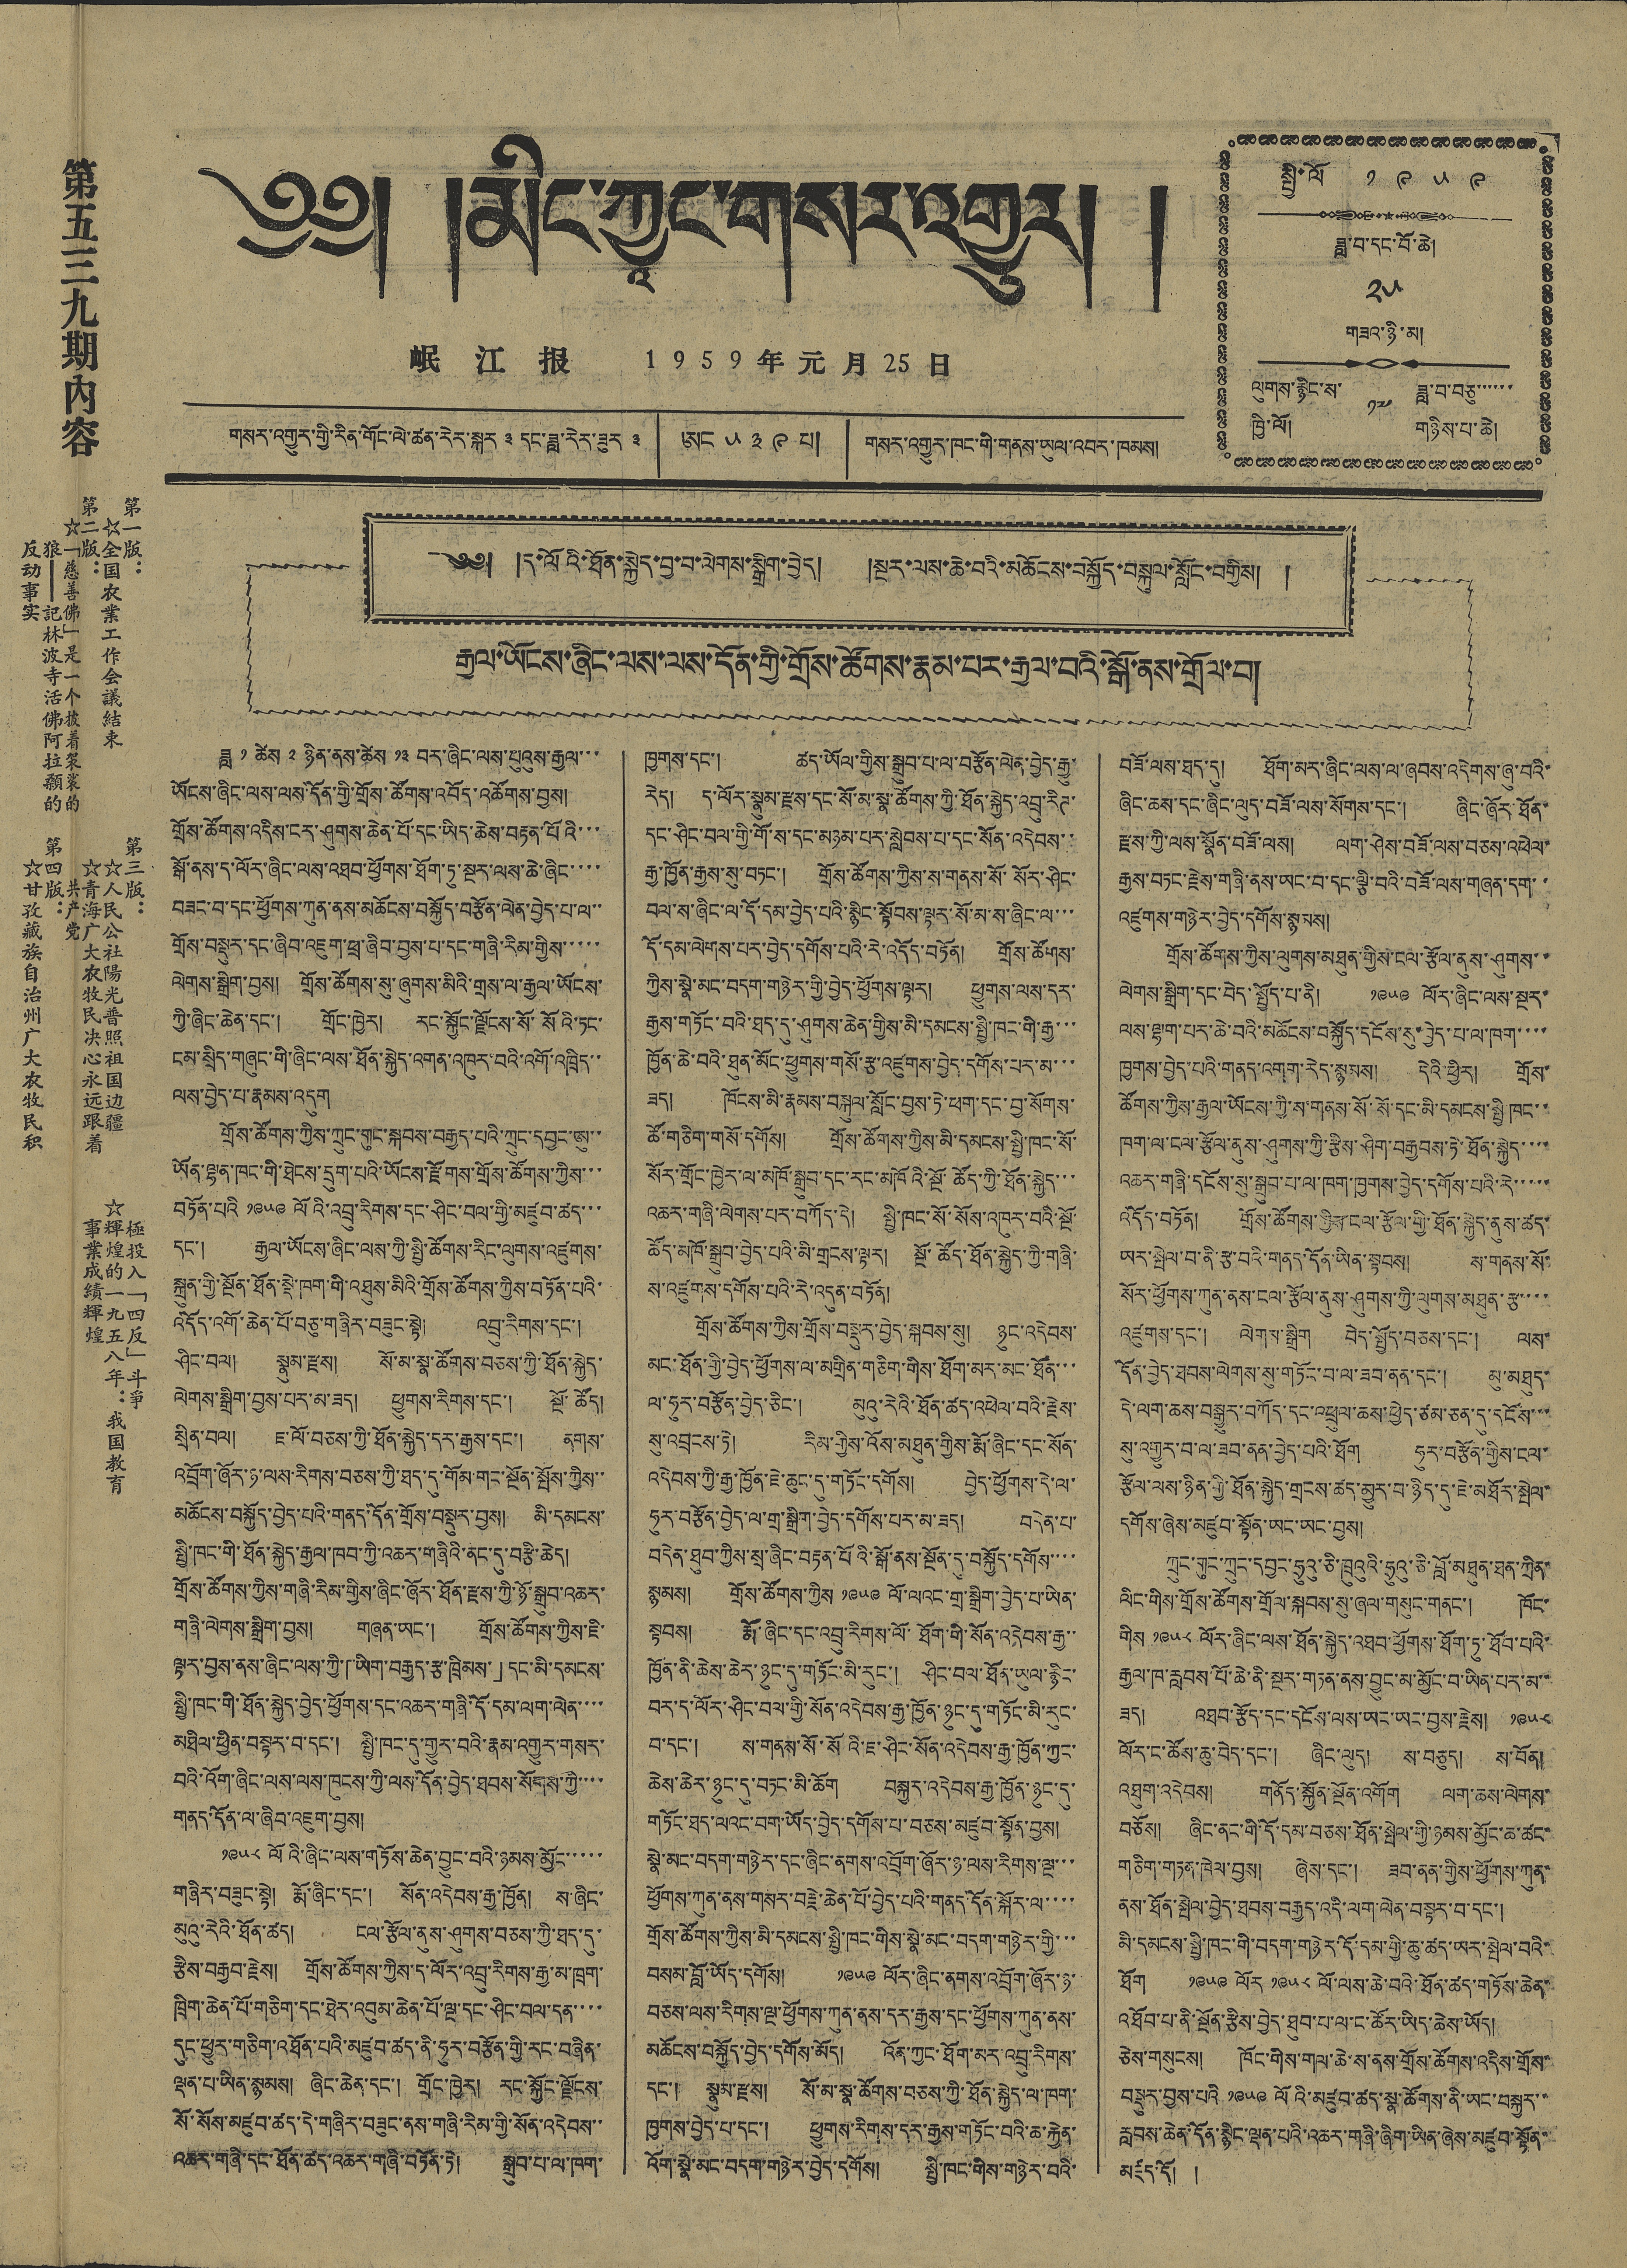༄༅། །མིང་ཀྱཱང་གསར་འགྱུར། །
岷 江 报 1 9 5 9 年 元 月 25 日
གསར་འགྱུར་གྱི་རིན་གོང་ལེ་ཚན་རེར་སྐར ༣ དང་ཟླ་རེར་ཟུར ༣ ཨང ༥༣༩ པ། གསར་འགྱུར་ཁང་གི་གནས་ཡུལ་འབར་ཁམས།
སྤྱི་ལོ ༡ ༩ ༥ ༩
ཟླ་བ་དང་བོ་ཚེ།
༢༥
གཟའ་ཉི་མ།
ལུགས་རྙིང་ས་
ཁྱི་ལོ།
༡༧
ཟླ་བ་བཅུ་་་་་་
གཉིས་པ་ཆེ།
第五三九期內容
第一版：
☆全国农業工作会議結束
第二版：
☆「慈善佛」是一个披着袈裟的
狼——記林波寺活佛阿拉顙的
反动事实
第三版：
☆人民公社陽光普照祖国边疆
☆青海广大农牧民决心永远跟着
共产党
第四版：
☆甘孜藏族自治州广大农牧民积
極投入「四反」斗爭
☆輝煌的一九五八年：我国教育
事業成績輝煌
༄༅། །ད་ལོའི་ཐོན་སྐྱེད་བྱ་བ་ལེགས་སྒྲིག་བྱེད། །སྔར་ལས་ཆེ་བའི་མཆོངས་བསྐྱོད་བསྐུལ་སློང་བགྱིས། །
རྒྱལ་ཡོངས་ཞིང་ལས་ལས་དོན་གྱི་གྲོས་ཚོགས་རྣམ་པར་རྒྱལ་བའི་སྒོ་ནས་གྲོལ་བ།
ཟླ ༡ ཚེས ༢ ཉིན་ནས་ཚེས ༡༣ བར་ཞིང་ལས་པུའུས་རྒྱལ་་་
ཡོངས་ཞིང་ལས་ལས་དོན་གྱི་གྲོས་ཚོགས་འབོད་འཚོགས་བྱས།
གྲོས་ཚོགས་འདིས་ངར་ཤུགས་ཆེན་པོ་དང་ཡིད་ཆེས་བརྟན་པོའི་་་
སྒོ་ནས་ད་ལོར་ཞིང་ལས་འཐབ་ཕྱོགས་ཐོག་ཏུ་སྔར་ལས་ཆེ་ཞིང་་་་
བཟང་བ་དང་ཕྱོགས་ཀུན་ནས་མཆོངས་བསྐྱོད་བརྩོན་ལེན་བྱེད་པ་ལ་་
གྲོས་བསྡུར་དང་ཞིབ་འཇུག་ཕྲ་ཞིབ་བྱས་པ་དང་གཞི་རིམ་གྱིས་་་་་
ལེགས་སྒྲིག་བྱས། གྲོས་ཚོགས་སུ་ཞུགས་མིའི་གྲས་ལ་རྒྱལ་ཡོངས་
ཀྱི་ཞིང་ཆེན་དང་། གྲོང་ཁྱེར། རང་སྐྱོང་ལྗོངས་སོ་སོའི་ཏང་
ངམ་སྲིད་གཞུང་གི་ཞིང་ལས་ཐོན་སྐྱེད་འགན་འཁུར་བའི་འགོ་འཁྲིད་་
ལས་བྱེད་པ་རྣམས་འདུག
གྲོས་ཚོགས་ཀྱིས་ཀྲུང་གུང་སྐབས་བརྒྱད་པའི་ཀྲུང་དབྱང་ཨུ་་
ཡོན་ལྷན་ཁང་གི་ཐེངས་དྲུག་པའི་ཡོངས་རྫོགས་གྲོས་ཚོགས་ཀྱིས་་་
བཏོན་པའི ༡༩༥༩ ལོའི་འབྲུ་རིགས་དང་ཤིང་བལ་གྱི་མཛུབ་ཚད་་་
དང་། རྒྱལ་ཡོངས་ཞིང་ལས་ཀྱི་སྤྱི་ཚོགས་རིང་ལུགས་འཛུགས་
སྐྲུན་གྱི་སྔོན་ཐོན་སྡེ་ཁག་གི་འཐུས་མིའི་གྲོས་ཚོགས་ཀྱིས་བཏོན་པའི་
འདོད་འགོ་ཆེན་པོ་བཅུ་གཞིར་བཟུང་སྟེ། འབྲུ་རིགས་དང་།
ཤིང་བལ། སྣམ་རྫས། སོ་མ་སྣ་ཚོགས་བཅས་ཀྱི་ཐོན་སྐྱེད་
ལེགས་སྒྲི་བྱས་པར་མ་ཟད། ཕྱུགས་རིགས་དང་། སྔོ་ཚོད།
སྲིན་བལ། ཇ་ལོ་བཅས་ཀྱི་ཐོན་སྐྱེད་དར་རྒྱས་དང་། ནགས་
འབྲོག་ཞོར་ཉ་ལས་རིགས་བཅས་ཀྱི་ཐད་དུ་གོམ་གང་སྔོན་སྤོས་ཀྱིས་་
མཆོངས་བསྐྱོད་བྱེད་པའི་གནད་དོན་གྲོས་བསྡུར་བྱས། མི་དམངས་
སྤྱི་ཁང་གི་ཐོན་སྐྱེད་རྒྱལ་ཁབ་ཀྱི་འཆར་གཞིའི་ནང་དུ་བརྩི་ཆེད།
གྲོས་ཚོགས་ཀྱིས་གཞི་རིམ་གྱིས་ཞིང་ཞོར་ཐོན་རྫས་ཀྱི་ཉོ་སྒྲུབ་འཆར་
གཞི་ལེགས་སྒྲིག་བྱས། གཞན་ཡང་། གྲོས་ཚོགས་ཀྱིས་ཇི་
ལྟར་བྱས་ནས་ཞིང་ལས་ཀྱི་「ཡིག་བརྒྱད་རྩ་ཁྲིམས་」དང་མི་དམངས་
སྤྱི་ཁང་གི་ཐོན་སྐྱེད་བྱེད་ཕྱོགས་དང་འཆར་གཞི་དོ་དམ་ལག་ལེན་་་་
མཐིལ་ཕྱིན་བསྟར་བ་དང་། སྤྱི་ཁང་དུ་གྱུར་བའི་རྣམ་འགྱུར་གསར་
བའི་འོག་ཞིང་ལས་ལས་ཁུངས་ཀྱི་ལས་དོན་བྱེད་ཐབས་སོགས་ཀྱི་་་་
གནད་དོན་ལ་ཞིབ་འཇུག་བྱས།
༡༩༥༨ ལོའི་ཞིང་ལས་གཏོས་ཆེན་བྱུང་བའི་ཉམས་མྱོང་་་་་
གཞིར་བཟུང་སྟེ། རྨོ་ཞིང་དང་། སོན་འདེབས་རྒྱ་ཁྱོན། ས་ཞིང་
མུའུ་རེའི་ཐོན་ཚད། ངལ་རྩོལ་ནུས་ཤུགས་བཅས་ཀྱི་ཐད་དུ་
རྩིས་བརྒྱབ་རྗེས། གྲོས་ཚོགས་ཀྱིས་ད་ལོར་འབྲུ་རིགས་རྒྱ་མ་ཁྲག་
ཁྲིག་ཆེན་པོ་གཅིག་དང་ཐེར་འབུམ་ཆེན་པོ་ལྔ་དང་ཤིང་བལ་དན་་་་
དུང་ཕྱུར་གཅིག་འཐོན་པའི་མཛུབ་ཚད་ནི་ཧུར་བརྩོན་གྱི་རང་བཞིན་
ལྡན་པ་ཡིན་སྙམས། ཞིང་ཆེན་དང་། གྲོང་ཁྱེར། རང་སྐྱོང་ལྗོངས་
སོ་སོས་མཛུབ་ཚད་དེ་གཞིར་བཟུང་ནས་གཞི་རིམ་གྱི་སོན་འདེབས་་
འཆར་གཞི་དང་ཐོན་ཚད་འཆར་གཞི་བཏོན་ཏེ། སྒྲུབ་པ་ལ་ཁག་
ཁྱགས་དང་། ཚད་ཡོལ་གྱིས་སྒྲུབ་པ་ལ་བརྩོན་ལེན་བྱེད་རྒྱུ་
རེད། ད་ལོར་སྣུམ་རྫས་དང་སོ་མ་སྣ་ཚོགས་ཀྱི་ཐོན་སྐྱེད་འབྲུ་རིཊ་
དང་ཤིང་བལ་གྱི་གོ་ས་དང་མཉམ་པར་སླེབས་པ་དང་སོན་འདེབས་་
རྒྱ་ཁྱོན་རྒྱས་སུ་བཏང་། གྲོས་ཚོགས་ཀྱིས་ས་གནས་སོ་སོར་ཤིང་
བལ་ས་ཞིང་ལ་དོ་དམ་བྱེད་པའི་སྙིང་སྟོབས་ལྟར་སོ་མ་ས་ཞིང་ལ་་་
དོ་དམ་ལེགས་པར་བྱེད་དགོས་པའི་རེ་འདོད་བཏོན། གྲོས་ཚོགས་
ཀྱིས་སྣེ་མང་བདག་གཉེར་གྱི་བྱེད་ཕྱོགས་ལྟར། ཕྱུགས་ལས་དར་
རྒྱས་གཏོང་བའི་ཐད་དུ་ཤུགས་ཆེན་གྱིས་མི་དམངས་སྤྱི་ཁང་གི་རྒྱ་་་
ཁྱོན་ཆེ་བའི་ཐུན་མོང་ཕྱུགས་གསོ་རྩ་འཛུགས་བྱེད་དགོས་པར་མ་་་
ཟད། ཁོངས་མི་རྣམས་བསྐུལ་སློང་བྱས་ཏེ་ཕག་དང་བྱ་སོགས་
ཚོ་གཅིག་གསོ་དགོས། གྲོས་ཚོགས་ཀྱིས་མི་དམངས་སྤྱི་ཁང་སོ་
སོར་གྲོང་ཁྱེར་ལ་མཁོ་སྒྲུབ་དང་རང་མཁོའི་སྔོ་ཚོད་ཀྱི་ཐོན་སྐྱེད་་་
འཆར་གཞི་ལེགས་པར་བཀོད་དེ། སྤྱི་ཁང་སོ་སོས་འཁུར་བའི་སྔོ་
ཆོད་མཁོ་སྒྲུབ་བྱེད་པའི་མི་གྲངས་ལྟར། སྔོ་ཚོད་ཐོན་སྐྱེད་ཀྱི་གཞི་
ས་འཛུགས་དགོས་པའི་རེ་འདུན་བཏོན།
གྲོས་ཚོགས་ཀྱིས་གྲོས་བསྡུར་བྱེད་སྐབས་སུ། ཉུང་འདེབས་
མང་ཐོན་གྱི་བྱེད་ཕྱོགས་ལ་མགྲིན་གཅིག་གིས་ཐོག་མར་མང་ཐོན་་་
ལ་ཧུར་བརྩོན་བྱེད་ཅིང་། མུའུ་རེའི་ཐོན་ཚད་འཕེལ་བའི་རྗེས་
སུ་འབྲངས་ཏེ། རིམ་གྱིས་འོས་མཏུན་གྱིས་རྨོ་ཞིང་དང་སོན་
འདེབས་ཀྱི་རྒྱ་ཁྱོན་ཇེ་ཆུང་དུ་གཏོང་དགོས། བྱེད་ཕྱོགས་དེ་ལ་
ཧུར་བརྩོན་བྱེད་ལ་གྲ་སྒྲིག་བྱེད་དགོས་པར་མ་ཟད། བདེན་པ་
བདེན་ཐུབ་ཀྱིས་སྲ་ཞིང་བརྟན་པོའི་སྒོ་ནས་སྔོན་དུ་བསྐྱོད་དགོས་་་་
སྙམས། གྲོས་ཚོགས་ཀྱིས ༡༩༥༩ ལོ་ལའང་གྲ་སྒྲིག་བྱེད་པ་ཡིན་
སྟབས། རྨོ་ཞིང་དང་འབྲུ་རིགས་ལོ་ཐོག་གི་སོན་འདེབས་རྒྱ་་
ཁྱོན་ནི་ཆེས་ཆེར་ཉུང་དུ་གཏོང་མི་རུང་། ཤིང་བལ་ཐོན་ཡུལ་རྙིང་
བར་ད་ལོར་ཤིང་བལ་གྱི་སོན་འདེབས་རྒྱ་ཁྱོན་ཉུང་དུ་གཏོང་མི་རུང་
བ་དང་། ས་གནས་སོ་སོའི་ཇ་ཤིང་སོན་འདེབས་རྒྱ་ཁྱོན་ཀྱང་
ཆེས་ཆེར་ཉུང་དུ་བཏང་མི་ཆོག བསྐྱར་འདེབས་རྒྱ་ཁྱོན་ཉུང་དུ་
གཏོང་ཐད་ལའང་བག་ཡོད་བྱེད་དགོས་པ་བཅས་མཛུབ་སྟོན་བྱས།
སྣེ་མང་བདག་གཉེར་དང་ཞིང་ནགས་འབྲོག་ཞོར་ཉ་ལས་རིགས་ལྔ་་་
ཕྱོགས་ཀུན་ནས་གསར་བརྗེ་ཆེན་པོ་བྱེད་པའི་གནད་དོན་སྐོར་ལ་་་་
གྲོས་ཚོགས་ཀྱིས་མི་དམངས་སྤྱི་ཁང་གིས་སྣེ་མང་བདག་གཉེར་གྱི་་་
བསམ་བློ་ཡོད་དགོས། ༡༩༥༩ ལོར་ཞིང་ནགས་འབྲོག་ཞོར་ཉ་
བཅས་ལས་རིགས་ལྔ་ཕྱོགས་ཀུན་ནས་དར་རྒྱས་དང་ཕྱོགས་ཀུན་ནས་
མཆོངས་བསྐྱོད་བྱེད་དགོས་མོད། འོན་ཀྱང་ཐོག་མར་འབྲུ་རིགས་
དང་། སྣུམ་རྫས། སོ་མ་སྣ་ཚོགས་བཅས་ཀྱི་ཐོན་སྐྱེད་ལ་ཁག་
ཁྱགས་བྱེད་པ་དང་། ཕྱུགས་རིགས་དར་རྒྱས་གཏོང་བའི་ཆ་རྐྱེན་
འོག་སྣེ་མང་བདག་གཉེར་བྱེད་དགོས། སྤྱི་ཁང་གིས་གཉེར་བའི་
བཟོ་ལས་ཐད་དུ། ཐོག་མར་ཞིང་ལས་ལ་ཞབས་འདེགས་ཞུ་བའི་
ཞིང་ཆས་དང་ཞིང་ལུད་བཟོ་ལས་སོགས་དང་། ཞིང་ཞོར་ཐོན་
རྫས་ཀྱི་ལས་སྣོན་བཟོ་ལས། ལག་ཤེས་བཟོ་ལས་བཅས་འཕེལ་
རྒྱས་བཏང་རྗེས་གཞི་ནས་ཡང་བ་དང་ལྕི་བའི་བཟོ་ལས་གཞན་དག་་
འཛུགས་གཉེར་བྱེད་དགོས་སྙམས།
གྲོས་ཚོགས་ཀྱིས་ལུགས་མཐུན་གྱིས་ངལ་རྩོལ་ནུས་ཤུགས་་
ལེགས་སྒྲིག་དང་བེད་སྤྱོད་པ་ནི། ༡༩༥༩ ལོར་ཞིང་ལས་སྔར་
ལས་ལྷག་པར་ཆེ་བའི་མཆོངས་བསྐྱོད་དངོས་སུ་བྱེད་པ་ལ་ཁག་་་་
ཁྱགས་བྱེད་པའི་གནད་འགག་རེད་སྙམས། དེའི་ཕྱིར། གྲོས་
ཚོགས་ཀྱིས་རྒྱལ་ཡོངས་ཀྱི་ས་གནས་སོ་སོ་དང་མི་དམངས་སྤྱི་ཁང་་
ཁག་ལ་ངལ་རྩོལ་ནུས་ཤུགས་ཀྱི་རྩིས་ཤིག་བརྒྱབས་ཏེ་ཐོན་སྐྱེད་་་་
འཆར་གཞི་དངོས་སུ་སྒྲུབ་པ་ལ་ཁག་ཁྱགས་བྱེད་དགོས་པའི་རེ་་་་་
འདོད་བཏོན། གྲོས་ཚོགས་ཀྱིས་ངལ་རྩོལ་གྱི་ཐོན་སྐྱེད་ནུས་ཚད་
ཡར་སྤེལ་བ་ནི་རྩ་བའི་གནད་དོན་ཡིན་སྟབས། ས་གནས་སོ་
སོར་ཕྱོགས་ཀུན་ནས་ངལ་རྩོལ་ནུས་ཤུགས་ཀྱི་ལུགས་མཐུན་རྩ་་་་
འཛུགས་དང་། ལེགས་སྒྲིག བེད་སྤྱོད་བཅས་དང་། ལས་
དོན་བྱེད་ཐབས་ལེགས་སུ་གཏོང་བ་ལ་ཟབ་ནན་དང་། མུ་མཐུད་
དེ་ལག་ཆས་བསྒྱུར་བཀོད་དང་འཕྲུལ་ཆས་ཕྱེད་ཙམ་ཅན་དུ་དངོས་་་
སུ་འགྱུར་བ་ལ་ཟབ་ནན་བྱེད་པའི་ཐོག ཧུར་བརྩོན་གྱིས་ངལ་
རྩོལ་ལས་ཉིན་གྱི་ཐོན་སྐྱེད་གྲངས་ཚད་མྱུར་བ་ཉིད་དུ་ཇེ་མཐོར་སྤེལ་
དགོས་ཞེས་མཛུབ་སྟོན་ཡང་ཡང་བྱས།
ཀྲུང་གུང་ཀྲུང་དབྱང་ཧྲུའུ་ཅི་ཁྲུའུའི་ཧྲུའུ་ཅི་བློ་མཐུན་ཐན་ཀྲིན་
ལིང་གིས་གྲོས་ཚོགས་གྲོལ་སྐབས་སུ་ཞལ་གསུང་གནང་། ཁོང་
གིས ༡༩༥༨ ལོར་ཞིང་ལས་ཐོན་སྐྱེད་འཐབ་ཕྱོགས་ཐོག་ཏུ་ཐོབ་པའི་
རྒྱལ་ཁ་རླབས་པོ་ཆེ་ནི་སྔར་གཏན་ནས་བྱུང་མ་མྱོང་བ་ཡིན་པར་མ་་
ཟད། འཐབ་རྩོད་དང་དངོས་ལས་ཡང་ཡང་བྱས་རྗེས། ༡༩༥༨
ལོར་ང་ཚོས་ཆུ་བེད་དང་། ཞིང་ལུད། ས་བཅུད། ས་བོན།
འཐུག་འདེབས། གནོད་སྐྱོན་སྔོན་འགོག ལག་ཆས་ལེགས་
བཅོས། ཞིང་ནང་གི་དོ་དམ་བཅས་ཐོན་སྤེལ་གྱི་ཉམས་མྱོང་ཆ་ཚང་
གཅིག་གཏན་ཁེལ་བྱས། ཞེས་དང་། ཟབ་ནན་གྱིས་ཕྱོགས་ཀུན་
ནས་ཐོན་སྤེལ་བྱེད་ཐབས་བརྒྱད་འདི་ལག་ལེན་བསྟར་བ་དང་།
མི་དམངས་སྤྱི་ཁང་གི་བདག་གཉེར་དོ་དམ་གྱི་ཆུ་ཚད་ཡར་སྤེལ་བའི་
ཐོག ༡༩༥༩ ལོར ༡༩༥༨ ལོ་ལས་ཆེ་བའི་ཐོན་ཚད་གཏོས་ཆེན་
འཐོབ་པ་ནི་སྔོན་རྩིས་བྱེད་ཐུབ་པ་ལ་ང་ཚོར་ཡིད་ཆེས་ཡོད།
ཅེས་གསུངས། ཁོང་གིས་གལ་ཆེ་ས་ནས་གྲོས་ཚོགས་འདིས་གྲོས་
བསྡུར་བྱས་པའི ༡༩༥༩ ལོའི་མཛུབ་ཚད་སྣ་ཚོགས་ནི་ཡང་བསྐྱར་་
རླབས་ཆེན་དོན་སྙིང་ལྡན་པའི་འཆར་གཞི་ཞིག་ཡིན་ཞེས་མཛུབ་སྟོན་
མཛད་དོ། །
